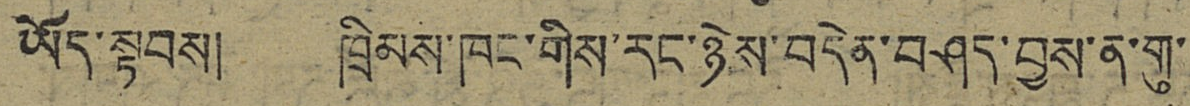ཡོད་སྟབས། ཁྲིམས་ཁང་གིས་རང་ཉེས་བདེན་བཤད་བྱས་ན་གུ་
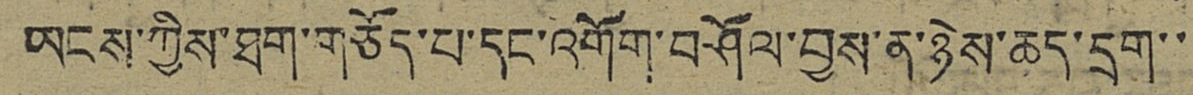ཡངས་ཀྱིས་ཐག་གཅོད་པ་དང་འགོག་བཤོལ་བྱས་ན་ཉེས་ཆད་དྲག་་
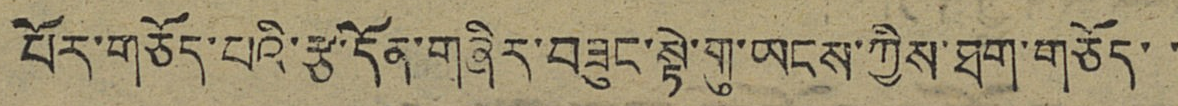པོར་གཅོད་པའི་རྩ་དོན་གཞིར་བཟུང་སྟེ་གུ་ཡངས་ཀྱིས་ཐག་གཅོད་་
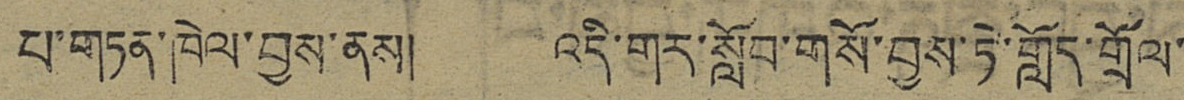པ་གཏན་ཁེལ་བྱས་ནས། འདི་གར་སློབ་གསོ་བྱས་ཏེ་གློད་གྲོལ་
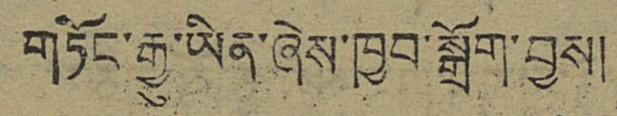གཏོང་རྒྱུ་ཡིན་ཞེས་ཁྱབ་སྒྲོག་བྱས།
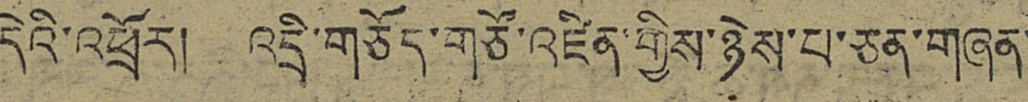དེའི་འཕྲོར། འདྲི་གཅོད་གཙོ་འཛིན་གྱིས་ཉེས་པ་ཅན་གཞན་
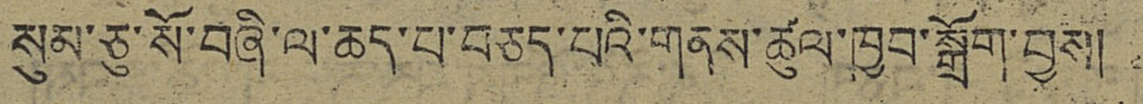སུམ་ཅུ་སོ་བཞི་ལ་ཆད་པ་བཅད་པའི་གནས་ཚུལ་ཁྱབ་སྒྲོག་བྱས།
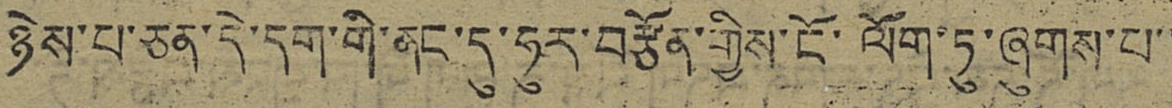ཉེས་པ་ཅན་དེ་དག་གི་ནང་དུ་ཧུར་བརྩོན་གྱིས་ངོ་ལོག་ཏུ་ཞུགས་པ་་
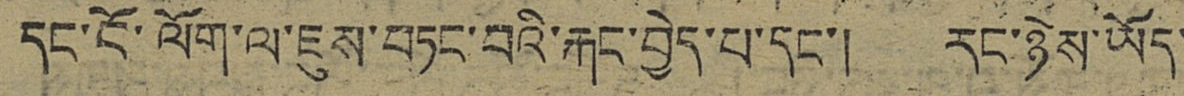དང་ངོ་ལོག་ལ་ཇུས་བཏང་བའི་རྐང་བྱེད་པ་དང་། རང་ཉེས་ཡོད་
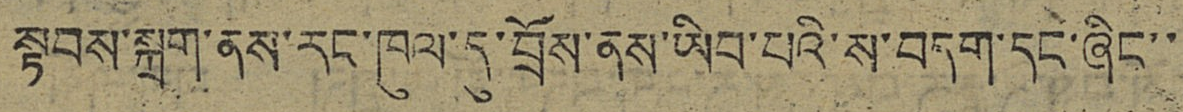སྟབས་སྐྲག་ནས་རང་ཁུལ་དུ་བྲོས་ནས་ཡིབ་པའི་ས་བདག་དང་ཞིང་་
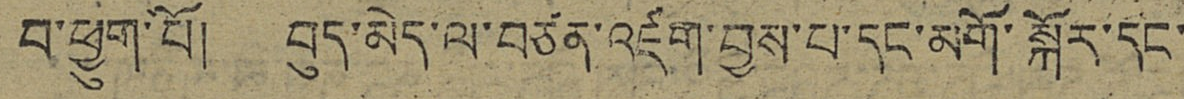བ་ཕྱུག་པོ། བུད་མེད་ལ་བཙན་འཛག་བྱས་པ་དང་མགོ་སྐོར་དང་
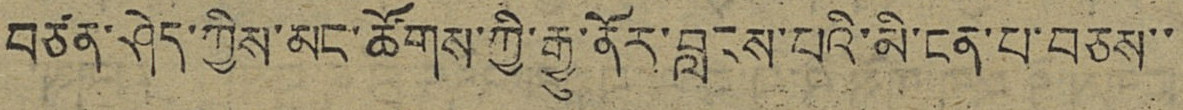བཙན་ཤེད་ཀྱིས་མང་ཚོགས་ཀྱི་རྒྱུ་ནོར་བླངས་པའི་མི་ངན་པ་བཅས་་
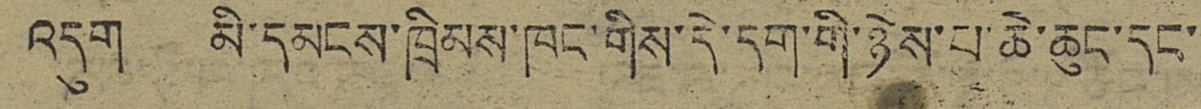འདུག མི་དམངས་ཁྲིམས་ཁང་གིས་དེ་དག་གི་ཉེས་པ་ཆེ་ཆུང་དང་
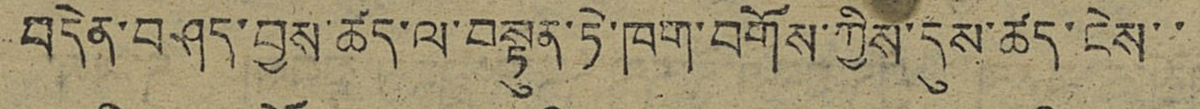བདེན་བཤད་བྱས་ཚད་ལ་བསྟུན་ཏེ་ཁག་བགོས་ཀྱིས་དུས་ཚད་ངེས་་
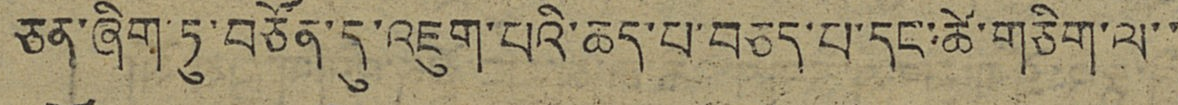ཅན་ཞིག་ཏུ་བཙོན་དུ་འཇུག་པའི་ཆད་པ་བཅད་པ་དང་ཚེ་གཅིག་ལ་་
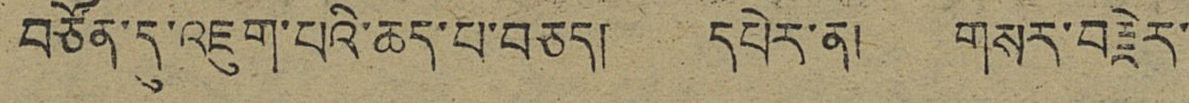བཙོན་དུ་འཇུག་པའི་ཆད་པ་བཅད། དཔེར་ན། གསར་བརྗེར་
